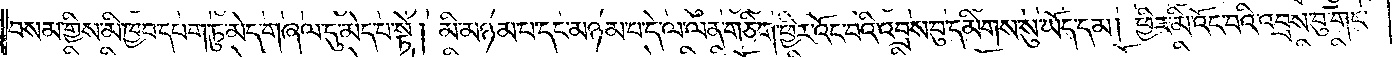བསམ་གྱིས་མི་ཁྱབ་དཔག་ཏུ་མེད་གཞལ་དུ་མེད་པ་སྟེ། མི་མཉམ་པ་དང་མཉམ་པ་དེ་ལ་ལན་ཅིག་ཕྱིར་འོང་བའི་འབྲས་བུ་དམིགས་སུ་ཡོད་དམ། ཕྱིར་མི་འོང་བའི་འབྲས་བུ་གང་
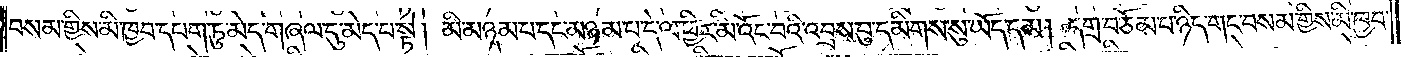བསམ་གྱིས་མི་ཁྱབ་དཔག་ཏུ་མེད་གཞལ་དུ་མེད་པ་སྟེ། མི་མཉམ་པ་དང་མཉམ་པ་དེ་ལ་ཕྱིར་མི་འོང་བའི་འབྲས་བུ་དམིགས་སུ་ཡོད་དམ། དགྲ་བཅོམ་པ་ཉིད་གང་བསམ་གྱིས་མི་ཁྱབ་
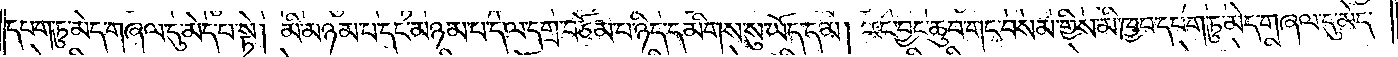དཔག་ཏུ་མེད་གཞལ་དུ་མེད་པ་སྟེ། མི་མཉམ་པ་དང་མཉམ་པ་དེ་ལ་དགྲ་བཅོམ་པ་ཉིད་དམིགས་སུ་ཡོད་དམ། རང་བྱང་ཆུབ་གང་བསམ་གྱིས་མི་ཁྱབ་དཔག་ཏུ་མེད་གཞལ་དུ་མེད་
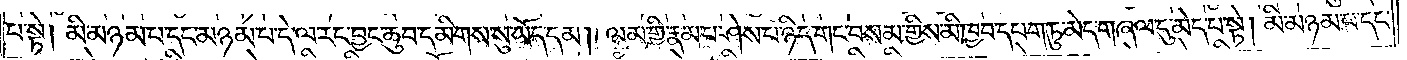པ་སྟེ། མི་མཉམ་པ་དང་མཉམ་པ་དེ་ལ་རང་བྱང་ཆུབ་དམིགས་སུ་ཡོད་དམ། ལམ་གྱི་རྣམ་པ་ཤེས་པ་ཉིད་གང་བསམ་གྱིས་མི་ཁྱབ་དཔག་ཏུ་མེད་གཞལ་དུ་མེད་པ་སྟེ། མི་མཉམ་པ་དང་
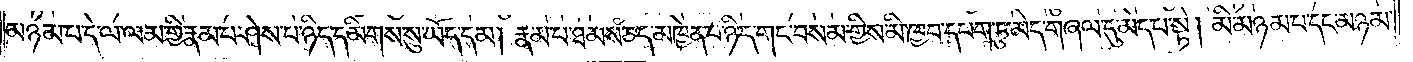མཉམ་པ་དེ་ལ་ལམ་གྱི་རྣམ་པ་ཤེས་པ་ཉིད་དམིགས་སུ་ཡོད་དམ། རྣམ་པ་ཐམས་ཅད་མཁྱེན་པ་ཉིད་གང་བསམ་གྱིས་མི་ཁྱབ་དཔག་ཏུ་མེད་གཞལ་དུ་མེད་པ་སྟེ། མི་མཉམ་པ་དང་མཉམ་
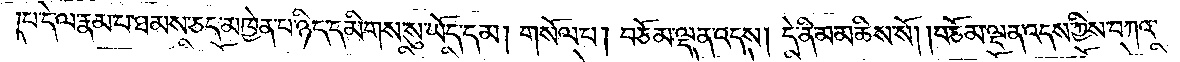པ་དེ་ལ་རྣམ་པ་ཐམས་ཅད་མཁྱེན་པ་ཉིད་དམིགས་སུ་ཡོད་དམ། གསོལ་པ། བཅོམ་ལྡན་འདས། དེ་ནི་མ་མཆིས་སོ། །བཅོམ་ལྡན་འདས་ཀྱིས་བཀའ་
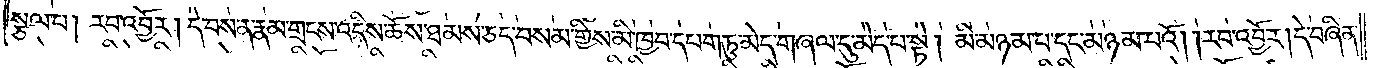སྩལ་པ། རབ་འབྱོར། དེ་བས་ན་རྣམ་གྲངས་འདིས་ཆོས་ཐམས་ཅད་བསམ་གྱིས་མི་ཁྱབ་དཔག་ཏུ་མེད་གཞལ་དུ་མེད་པ་སྟེ། མི་མཉམ་པ་དང་མཉམ་པའོ། །རབ་འབྱོར། དེ་བཞིན་
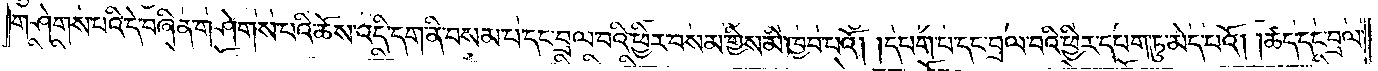གཤེགས་པའི་དེ་བཞིན་གཤེགས་པའི་ཆོས་འདི་དག་ནི་བསམ་པ་དང་བྲལ་བའི་ཕྱིར་བསམ་གྱིས་མི་ཁྱབ་པའོ། །དཔག་པ་དང་བྲལ་བའི་ཕྱིར་དཔག་ཏུ་མེད་པའོ། །ཚད་དང་བྲལ་
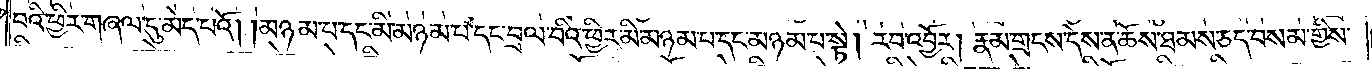བའི་ཕྱིར་གཞལ་དུ་མེད་པའོ། །མཉམ་པ་དང་མི་མཉམ་པ་དང་བྲལ་བའི་ཕྱིར་མི་མཉམ་པ་དང་མཉམ་པ་སྟེ། རབ་འབྱོར། རྣམ་གྲངས་དེས་ན་ཆོས་ཐམས་ཅད་བསམ་གྱིས་
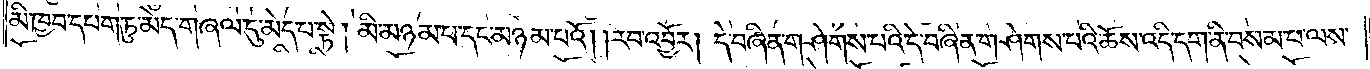མི་ཁྱབ་དཔག་ཏུ་མེད་གཞལ་དུ་མེད་པ་སྟེ། མི་མཉམ་པ་དང་མཉམ་པའོ། །རབ་འབྱོར། དེ་བཞིན་གཤེགས་པའི་དེ་བཞིན་གཤེགས་པའི་ཆོས་འདི་དག་ནི་བསམ་པ་ལས་
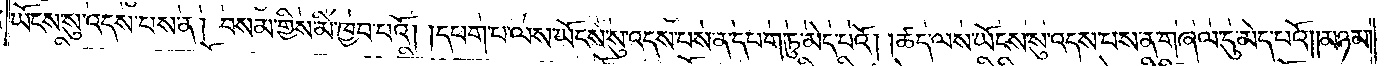ཡོངས་སུ་འདས་པས་ན། བསམ་གྱིས་མི་ཁྱབ་པའོ། །དཔག་པ་ལས་ཡོངས་སུ་འདས་པས་ན་དཔག་ཏུ་མེད་པའོ། །ཚད་ལས་ཡོངས་སུ་འདས་པས་ན་གཞལ་དུ་མེད་པའོ། །མཉམ་
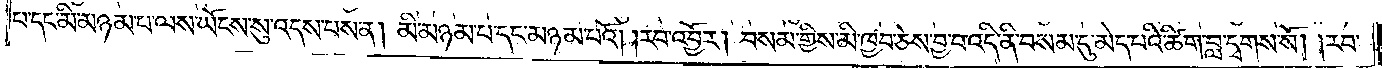པ་དང་མི་མཉམ་པ་ལས་ཡོངས་སུ་འདས་པས་ན། མི་མཉམ་པ་དང་མཉམ་པའོ། །རབ་འབྱོར། བསམ་གྱིས་མི་ཁྱབ་ཅེས་བྱ་བ་འདི་ནི་བསམ་དུ་མེད་པའི་ཚིག་བླ་དྭགས་སོ། །རབ་
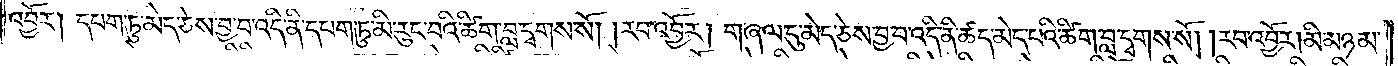འབྱོར། དཔག་ཏུ་མེད་ཅེས་བྱ་བ་འདི་ནི་དཔག་ཏུ་མི་རུང་བའི་ཚིག་བླ་དྭགས་སོ། །རབ་འབྱོར། གཞལ་དུ་མེད་ཅེས་བྱ་བ་འདི་ནི་ཚད་མེད་པའི་ཚིག་བླ་དྭགས་སོ། །རབ་འབྱོར། མི་མཉམ་
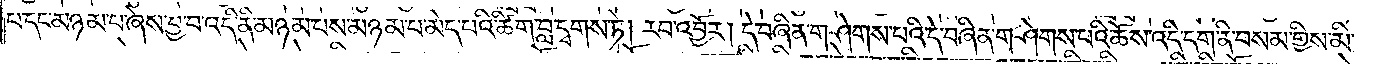པ་དང་མཉམ་པ་ཞེས་བྱ་བ་འདི་ནི་མཉམ་པས་མཉམ་པ་མེད་པའི་ཚིག་བླ་དགས་ཏེ། རབ་འབྱོར། དེ་བཞིན་གཤེགས་པའི་དེ་བཞིན་གཤེགས་པ་བའི་ཆོས་འདི་དག་ནི་བསམ་གྱིས་མི་
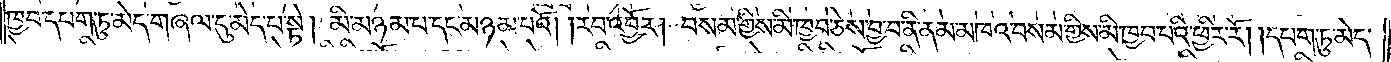ཁྱབ་དཔག་ཏུ་མེད་གཞལ་དུ་མེད་པ་སྟེ། མི་མཉམ་པ་དང་མཉམ་པའོ། །རབ་འབྱོར། བསམ་གྱིས་མི་ཁྱབ་ཅེས་བྱ་བ་ནི་ནམ་མཁའ་བསམ་གྱིས་མི་ཁྱབ་པའི་ཕྱིར་རོ། །དཔག་ཏུ་མེད་
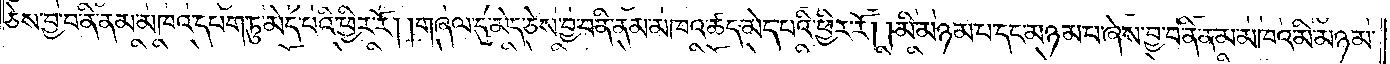ཅེས་བྱ་བ་ནི་ནམ་མཁའ་དཔག་ཏུ་མེད་པའི་ཕྱིར་རོ། །གཞལ་དུ་མེད་ཅེས་བྱ་བ་ནི་ནམ་མཁའ་ཚད་མེད་པའི་ཕྱིར་རོ། །མི་མཉམ་པ་དང་མཉམ་པ་ཞེས་བྱ་བ་ནི་ནམ་མཁའ་མི་མཉམ་
